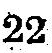22
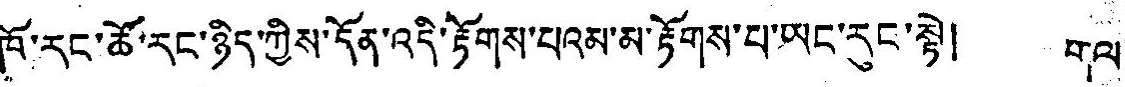ཁོ་རང་ཚོ་རང་ཉིད་ཀྱིས་དོན་འདི་རྟོགས་པའམ་མ་རྟོགས་པ་ཡང་རུང་སྟེ། གལ་
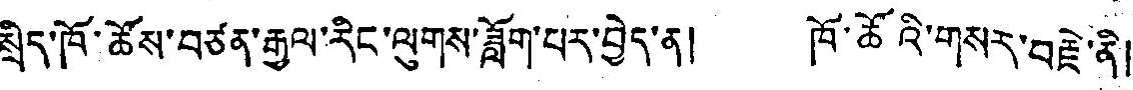སྲིད་ཁོ་ཚོས་བཙན་རྒྱལ་རིང་ལུགས་ཟློག་པར་བྱེད་ན། ཁོ་ཚོའི་གསར་བརྗེ་ནི།
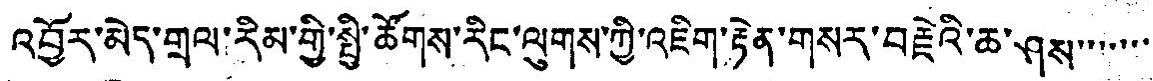འབྱོར་མེད་གྲལ་རིམ་གྱི་སྤྱི་ཚོགས་རིང་ལུགས་ཀྱི་འཇིག་རྟེན་གསར་བརྗེའི་ཆ་ཤས་་་་་་་
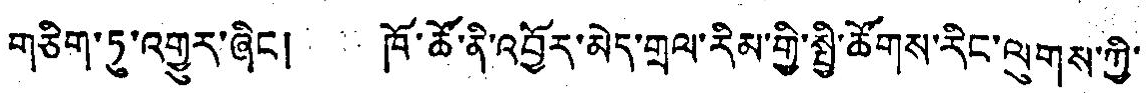གཅིག་ཏུ་འགྱུར་ཞིང། ཁོ་ཚོ་ནི་འབྱོར་མེད་གྲལ་རིམ་གྱི་སྤྱི་ཚོགས་རིང་ལུགས་ཀྱི་
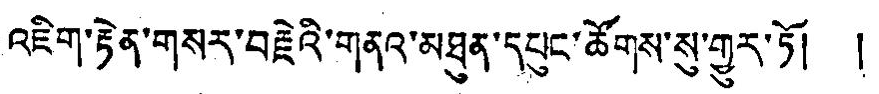འཇིག་རྟེན་གསར་བརྗེའི་གནའ་མཐུན་དཔུང་ཚོགས་སུ་གྱུར་ཏོ། །
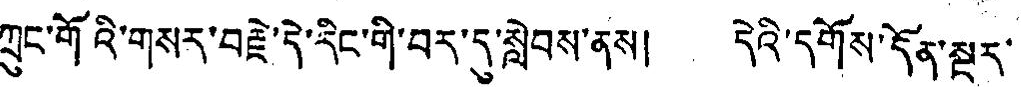ཀྲུང་གོའི་གསར་བརྗེ་དེ་རིང་གི་བར་དུ་སླེབས་ནས། དེའི་དགོས་དོན་སྔར་
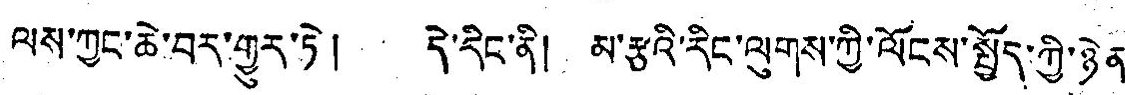ལས་ཀྱང་ཆེ་བར་གྱུར་ཏེ། དེ་རིང་ནི། མ་རྩའི་རིང་ལུགས་ཀྱི་ལོངས་སྤྱོད་ཀྱི་ཉེན་
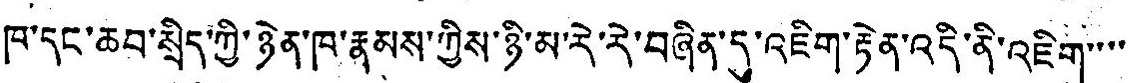ཁ་དང་ཆབ་སྲིད་ཀྱི་ཉེན་ཁ་རྣམས་ཀྱིས་ཉི་མ་རེ་རེ་བཞིན་དུ་འཇིག་རྟེན་འདི་ནི་འཇིག་་་་
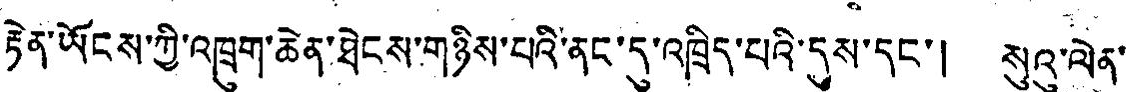རྟེན་ཡོངས་ཀྱི་འཁྲུག་ཆེན་ཐེངས་གཉིས་པའི་ནང་དུ་འཁྲིད་པའི་དུས་དང་། སུའུ་ལེན་
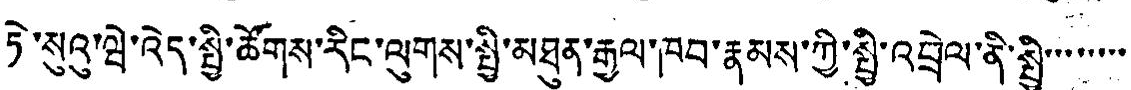ཏེ་སུའུ་ཝེ་འེད་སྤྱི་ཚོགས་རིང་ལུགས་སྤྱི་མཐུན་རྒྱལ་ཁབ་རྣམས་ཀྱི་སྤྱི་འབྲེལ་ནི་སྤྱི་་་་་་་་
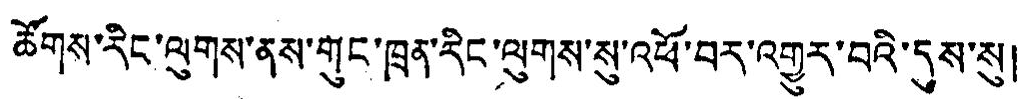ཚོགས་རིང་ལུགས་ནས་གུང་ཁྲན་རིང་ལུགས་སུ་འཕོ་བར་འགྱུར་བའི་དུས་སུ།
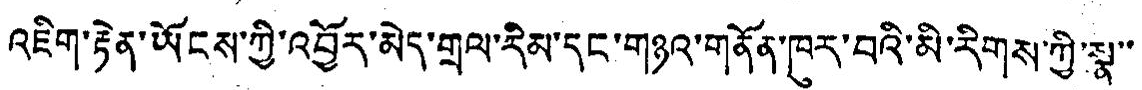འཇིག་རྟེན་ཡོངས་ཀྱི་འབྱོར་མེད་གྲལ་རིམ་དང་གཉའ་གནོན་ཁུར་བའི་མི་རིགས་ཀྱི་སྣ་་
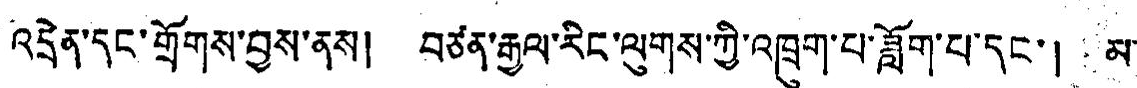འདྲེན་དང་གྲོགས་བྱས་ནས། བཙན་རྒྱལ་རིང་ལུསྒ་ཀྱི་འཁྲུག་པ་ཟློག་པ་དང་། མ་
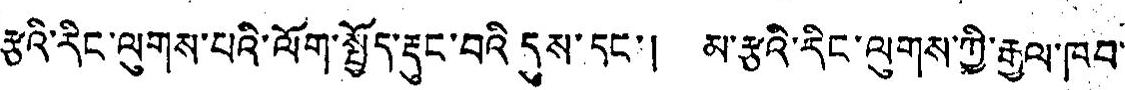རྩའི་རིང་ལུགས་པའི་ལོག་སྤྱོད་རྡུང་བའི་དུས་དང་། མ་རྩའི་རིང་ལུགས་ཀྱི་རྒྱལ་ཁབ་
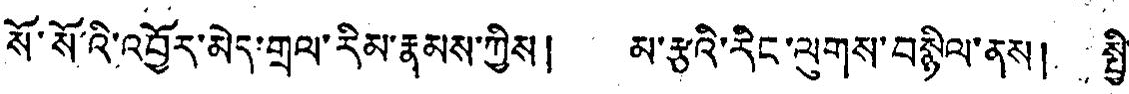སོ་སོའི་འབྱོར་མེད་གྲལ་རིམ་རྣམས་ཀྱིས། མ་རྩའི་རིང་ལུགས་བསྙིལ་ནས། སྤྱི་
